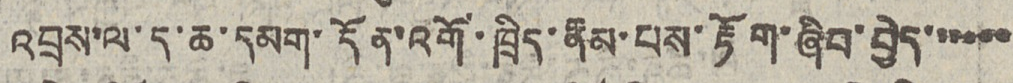འབྲས་ལ་ད་ཆ་དམག་དོན་འགོ་ཁྲིད་རྣམ་པས་རྟོག་ཞིབ་བྱེད་་་་་་
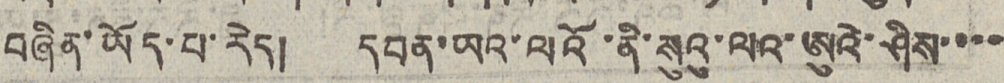བཞིན་ཡོད་པ་རེད། དབན་ཡའ་ལའོ་ནི་སུའུ་ལའ་ཨུའེ་ཤིས་་་་
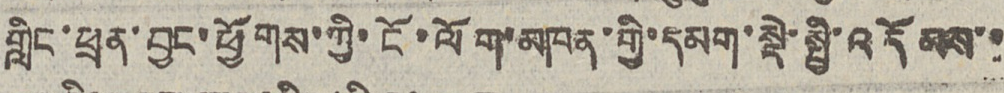གླིང་ཕྲན་བྱང་ཕྱོགས་ཀྱི་ངོ་ལོག་མཁན་གྱི་དམག་སྡེ་སྤྱི་འདོམས་་
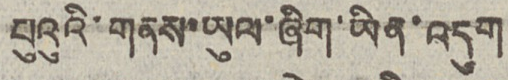པུའུའི་གནས་ཡུལ་ཞིག་ཡིན་འདུག
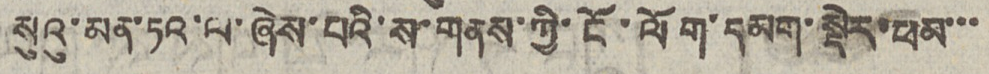སུའུ་མན་ཏའ་ལ་ཞེས་པའི་ས་གནས་ཀྱི་ངོ་ལོག་དམག་སྡེར་ཕམ་་་
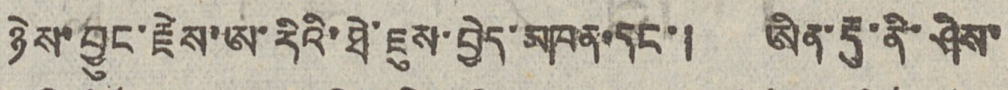ཉེས་བྱུང་རྗེས་ཨ་རིའི་ཐེ་ཇུས་བྱེད་མཁན་དང་། ཨིན་རྡུ་ནི་ཤིས་
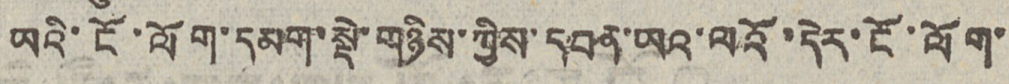ཡའི་ངོ་ལོག་དམག་སྡེ་གཉིས་ཀྱིས་དབན་ཡའ་ལའོ་དེར་ངོ་ལོག་
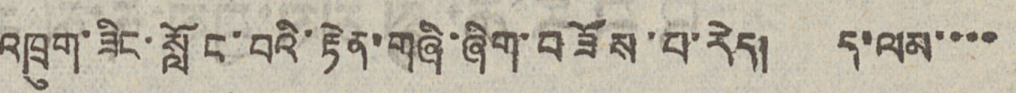འཁྲུག་ཟིང་སློང་བའི་རྟེན་གཞི་ཞིག་བཟོས་པ་རེད། ད་ལམ་་་་
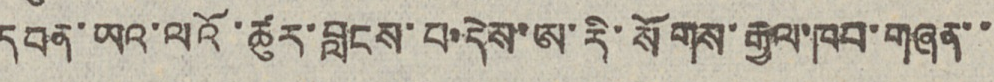དབན་ཡའ་ལའོ་ཚུར་བླངས་པ་དེས་ཨ་རི་སོགས་རྒྱལ་ཁབ་གཞན་་
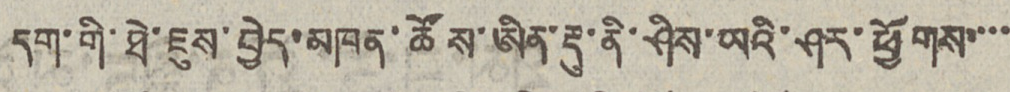དག་གི་ཐེ་ཇུས་བྱེད་མཁན་ཚོས་ཨིན་རྡུ་ནི་ཤིས་ཡའི་ཤར་ཕྱོགས་་་་
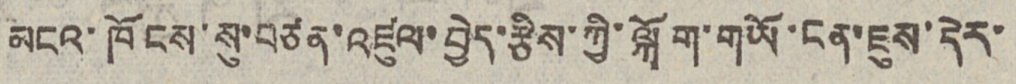མངའ་ཁོངས་སུ་བཙན་འཛུལ་བྱེད་རྩིས་ཀྱི་ལྐོག་གཡོ་ངན་ཇུས་དེར་
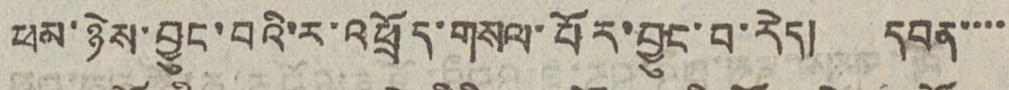ཕམ་ཉེས་བྱུང་བའི་ར་འཕྲོད་གསལ་པོར་བྱུང་བ་རེད། དབན་་་་
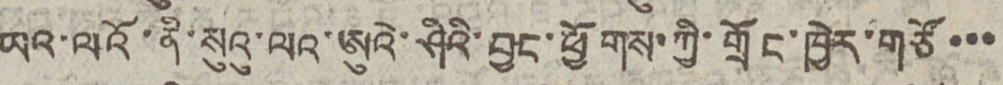ཡའ་ལའོ་ནི་སུའུ་ལའ་ཨུའེ་ཤིའི་བྱང་ཕྱོགས་ཀྱི་གྲོང་ཁྱེར་གཙོ་་་
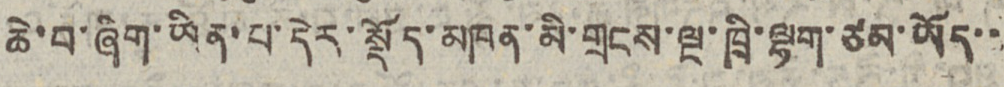ཆེ་བ་ཞིག་ཡིན་པ་དེར་སྡོད་མཁན་མི་གྲངས་ལྔ་ཁྲི་ལྷག་ཙམ་ཡོད་་
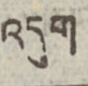འདུག
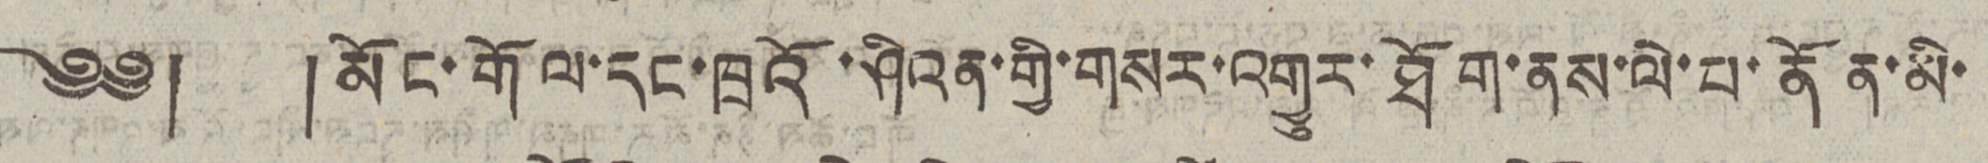༄༅། །མོང་གོལ་དང་ཁྲའོ་ཤིའན་གྱི་གསར་འགྱུར་ཐོག་ནས་ལེ་པ་ནོན་མི་
